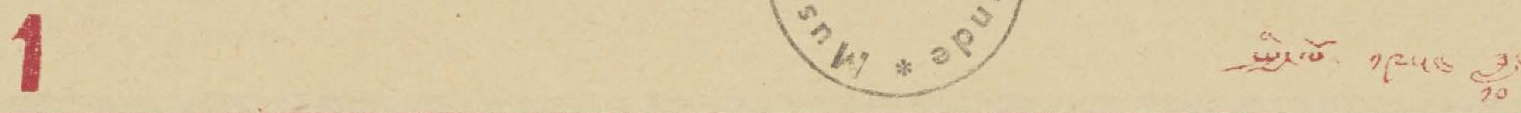1 སྤྱི་ལོ་ ༡༩༥༤ ཟླ་
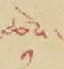ཚེས་
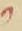༡
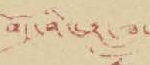བོད་ཤིང་རྟ་ཟླ་
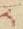༨
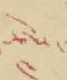ཚེས་
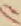༤
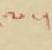ལ།
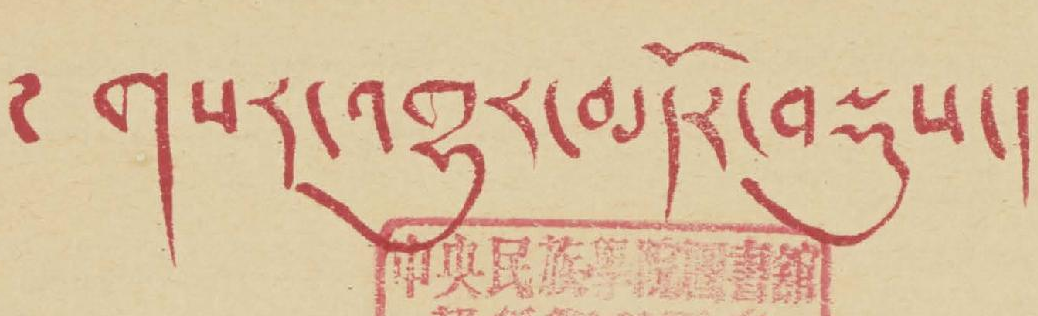༄ གསར་འགྱུར་མདོར་བསྡུས་།
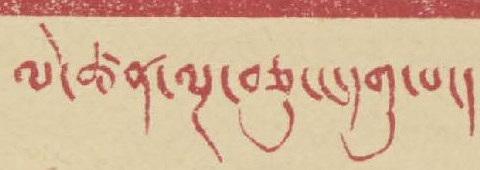ལེ་ཚན་ལྔ་བཅུ་ང་དགུ་པ་།
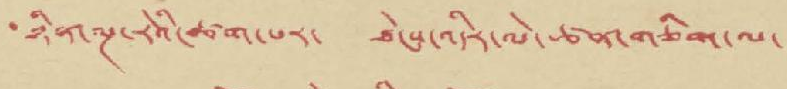ཉིན་ལྔ་རེའི་ཚག་པར་ ཐེངས་འདིར་ལེ་ཚན་གཅིག་ལ་
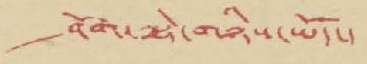ཤོག་ལྷེ་གཉིས་ཡོད་།
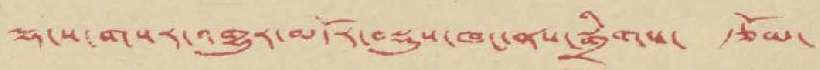ལྷ་ས་གསར་འགྱུར་མདོར་བསྡུས་ཁང་ནས་སྒྲིགས་ རྩོམ་
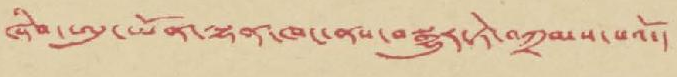ཞིབ་ཨུ་ཡོན་ལྷན་ཁང་ནས་བསྒྱུར་ཏེ་བཀྲམས་པའོ་།
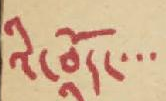འི་བོད་་་
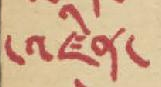འཛིན་
